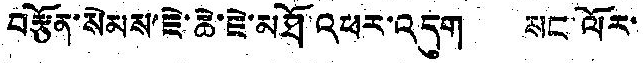བརྩོན་སེམས་ཇེ་ཆེ་ཇེ་མཐོ འཕར་འདུག སང་ལོར་
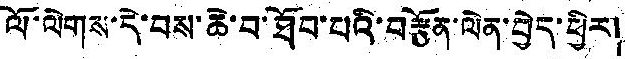ལོ་ལེགས་དེ་བས་ཆེ་བ་ཐོབ་པའི་བརྩོན་ལེན་བྱེད་ཕྱིར།
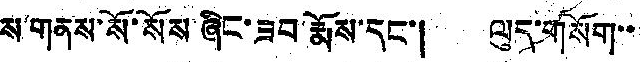ས་གནས་སོ་སོས་ཞིང་ཟབ་རྨོས་དང་། ལུད་གསོག་་
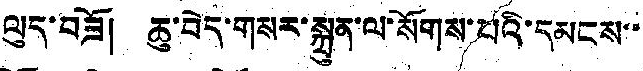ལུད་བཟོ། ཆུ་བེད་གསར་སྐྲུན་ལ་སོགས་པའི་དམངས་་
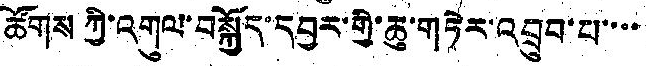ཚོགས ཀྱི་འགུལ་བསྐྱོད་དབྱར་གྱི་ཆུ་གཏེར་འབྲུབ་པ་་་་
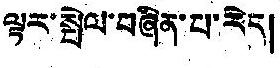ལྟར་སྤེལ་བཞིན་པ་རེད།
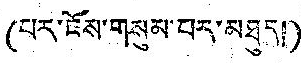(པར་ངོས་གསུམ་པར་མཐུད།)
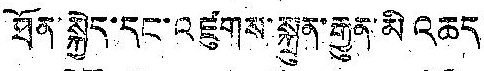ཐོན་སྐྱེད་དང་འཛུགས་སྐྲུན་རྒྱུན་མི འཆད
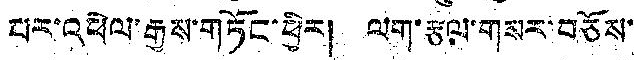པར་འཕེལ་རྒྱས་གཏོང་ཕྱིར། ལག་རྩལ་གསར་བཅོས་
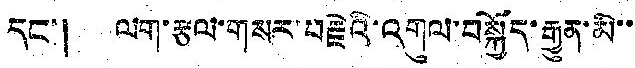དང་། ལག་རྩལ་གསར་བརྗེའི་འགུལ་བསྐྱོད་རྒྱུན་མི་་
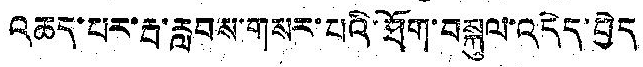འཆད་པར་རྦ་རླབས་གསར་པའི་ཐོག་བསྐུལ་འདེད་བྱེད
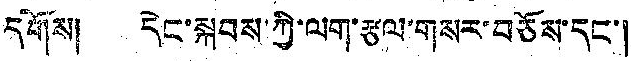དགོས། དེང་སྐབས་ཀྱི་ལག་རྩལ་གསར་བཅོས་དང་།
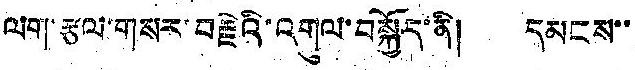ལག་རྩལ་གསར་བརྗེའི་འགུལ་བསྐྱོད་ནི། དམངས་་
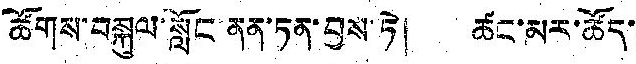ཚོགས་བསྐུལ་སློང་ནན་ཏན་བྱས་ཏེ། ཚང་མར་ཚོད་
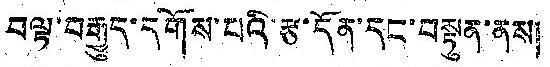བལྟ་བརྒྱུད་དགོས་པའི་རྩ་དོན་དང་བསྟུན་ནས།
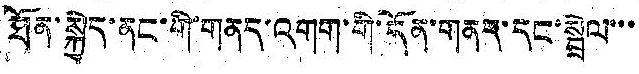ཐོན་སྐྱེད་ནང་གི་གནད་འགག་གི་དོན་གནད་དང་སྦྲེལ་་་
